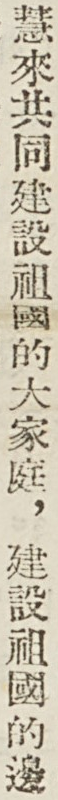慧來共同建設祖國的大家庭，建設祖國的邊
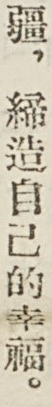疆，締造自己的幸福。
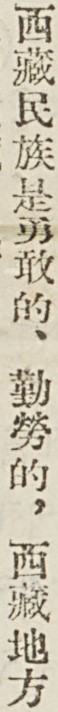西藏民族是勇敢的、勤勞的，西藏地方
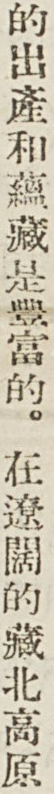的出產和蘊藏是豐富的。在遼闊的藏北高原
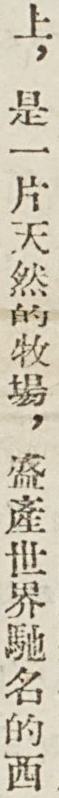上，是一片天然的牧場，盛產世界馳名的西
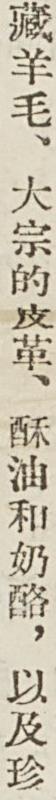藏羊毛、大宗的皮革、酥油和奶酪，以及珍
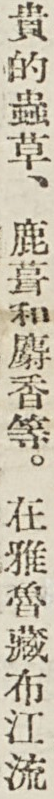貴的蟲草、鹿葺和麝香等。在雅魯藏布江流
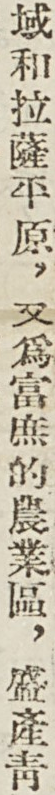域和拉薩平原，又爲富庶的農業區，盛產靑
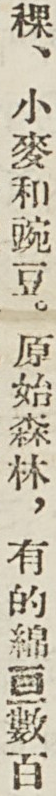稞、小麥和豌豆。原始森林，有的綿亙數百
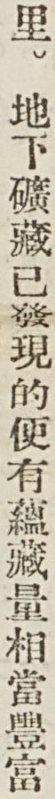里。地下礦藏已發現的便有蘊藏量相當豐富
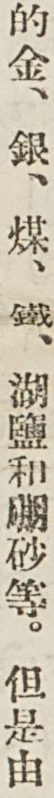的金、銀、煤、鐵、湖鹽和硼砂等。但是由
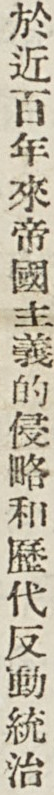於近百年來帝國主義的侵略和歷代反動統治
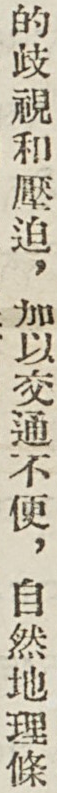的歧視和壓迫，加以交通不便，自然地理條
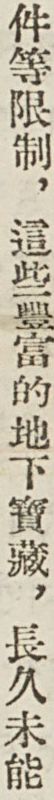件等限制，這些豐富的地下寶藏，長久未能
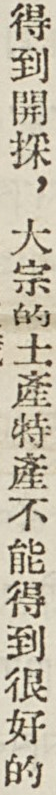得到開採，大宗的土產特產不能得到很好的
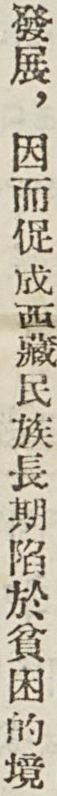發展，因而促成西藏民族長期陷於貧困的境
